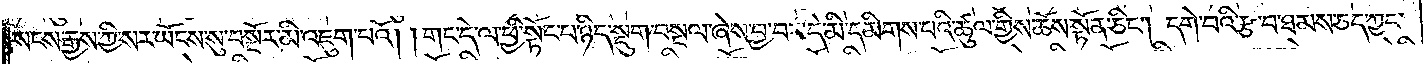སངས་རྒྱས་ཀྱི་སར་ཡོངས་སུ་བསྔོར་མི་འཇུག་པའོ། །གང་དེ་ལ་ཕྱི་སྟོང་པ་ཉིད་སྡུག་བསྔལ་ཞེས་བྱ་བར་དེ་མི་དམིགས་པའི་ཚུལ་གྱིས་ཆོས་སྟོན་ཅིང༌། དགེ་བའི་རྩ་བ་ཐམས་ཅད་ཀྱང་
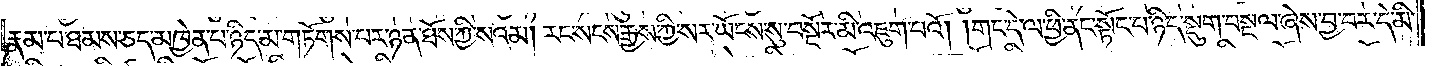རྣམ་པ་ཐམས་ཅད་མཁྱེན་པ་ཉིད་མ་གཏོགས་པར་ཉན་ཐོས་ཀྱི་སའམ། རང་སངས་རྒྱས་ཀྱི་སར་ཡོངས་སུ་བསྔོར་མི་འཇུག་པའོ། །གང་དེ་ལ་ཕྱི་ནང་སྟོང་པ་ཉིད་སྡུག་བསྔལ་ཞེས་བྱ་བར་དེ་མི་
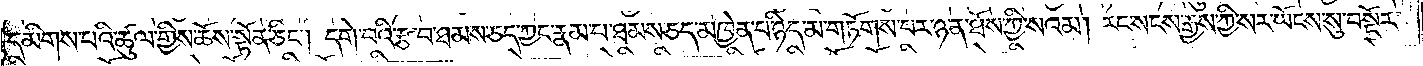དམིགས་པའི་ཚུལ་གྱིས་ཆོས་སྟོན་ཅིང༌། དགེ་བའི་རྩ་བ་ཐམས་ཅད་ཀྱང་རྣམ་པ་ཐམས་ཅད་མཁྱེན་པ་ཉིད་མ་གཏོགས་པར་ཉན་ཐོས་ཀྱི་སའམ། རང་སངས་རྒྱས་ཀྱི་སར་ཡོངས་སུ་བསྔོར་
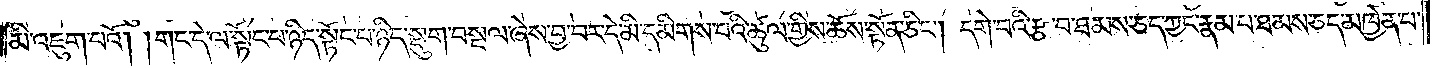མི་འཇུག་པའོ། །གང་དེ་ལ་སྟོང་པ་ཉིད་སྟོང་པ་ཉིད་སྡུག་བསྔལ་ཞེས་བྱ་བར་དེ་མི་དམིགས་པའི་ཚུལ་གྱིས་ཆོས་སྟོན་ཅིང༌། དགེ་བའི་རྩ་བ་ཐམས་ཅད་ཀྱང་རྣམ་པ་ཐམས་ཅད་མཁྱེན་པ་
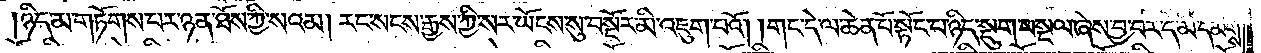ཉིད་མ་གཏོགས་པར་ཉན་ཐོས་ཀྱི་སའམ། རང་སངས་རྒྱས་ཀྱི་སར་ཡོངས་སུ་བསྔོར་མི་འཇུག་པའོ། །གང་དེ་ལ་ཆེན་པོ་སྟོང་བ་ཉིད་སྡུག་བསྔལ་ཞེས་བྱ་བར་དེ་མི་དམིགས་
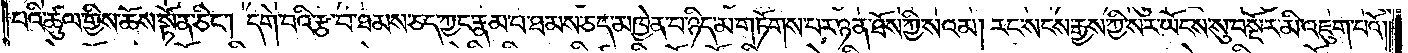པའི་ཚུལ་གྱིས་ཆོས་སྟོན་ཅིང༌། དགེ་བའི་རྩ་བ་ཐམས་ཅད་ཀྱང་རྣམ་པ་ཐམས་ཅད་མཁྱེན་པ་ཉིད་མ་གཏོགས་པར་ཉན་ཐོས་ཀྱི་སའམ། རང་སངས་རྒྱས་ཀྱི་སར་ཡོངས་སུ་བསྔོར་མི་འཇུག་པའོ༎
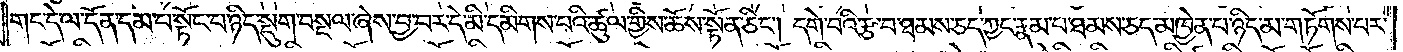གང་དེ་ལ་དོན་དམ་པ་སྟོང་པ་ཉིད་སྡུག་བསྔལ་ཞེས་བྱ་བར་དེ་མི་དམིགས་པའི་ཚུལ་གྱིས་ཆོས་སྟོན་ཅིང༌། དགེ་བའི་རྩ་བ་ཐམས་ཅད་ཀྱང་རྣམ་པ་ཐམས་ཅད་མཁྱེན་པ་ཉིད་མ་གཏོགས་པར་
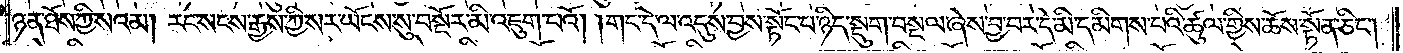ཉན་ཐོས་ཀྱི་སའམ། རང་སངས་རྒྱས་ཀྱི་སར་ཡོངས་སུ་བསྔོར་མི་འཇུག་པའོ། །གང་དེ་ལ་འདུས་བྱས་སྟོང་པ་ཉིད་སྡུག་བསྔལ་ཞེས་བྱ་བར་དེ་མི་དམིགས་པའི་ཚུལ་གྱིས་ཆོས་སྟོན་ཅིང༌།
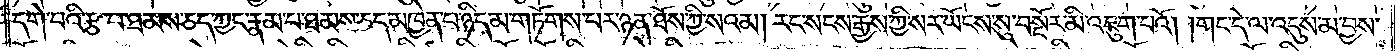དགེ་བའི་རྩ་བ་ཐམས་ཅད་ཀྱང་རྣམ་པ་ཐམས་ཅད་མཁྱེན་པ་ཉིད་མ་གཏོགས་པར་ཉན་ཐོས་ཀྱི་སའམ། རང་སངས་རྒྱས་ཀྱི་སར་ཡོངས་སུ་བསྔོར་མི་འཇུག་པའོ། །གང་དེ་ལ་འདུས་མ་བྱས་
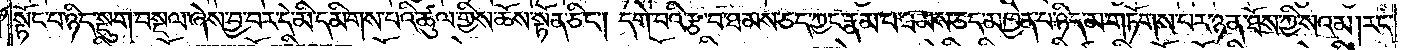སྟོང་པ་ཉིད་སྡུག་བསྔལ་ཞེས་བྱ་བར་དེ་མི་དམིགས་པའི་ཚུལ་གྱིས་ཆོས་སྟོན་ཅིང༌། དགེ་བའི་རྩ་བ་ཐམས་ཅད་ཀྱང་རྣམ་པ་ཐམས་ཅད་མཁྱེན་པ་ཉིད་མ་གཏོགས་པར་ཉན་ཐོས་ཀྱི་སའམ། རང་
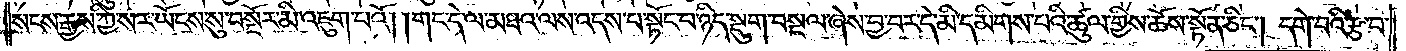སངས་རྒྱས་ཀྱི་སར་ཡོངས་སུ་བསྔོར་མི་འཇུག་པའོ། །གང་དེ་ལ་མཐའ་ལས་འདས་པ་སྟོང་པ་ཉིད་སྡུག་བསྔལ་ཞེས་བྱ་བར་དེ་མི་དམིགས་པའི་ཚུལ་གྱིས་ཆོས་སྟོན་ཅིང༌། དགེ་བའི་རྩ་བ་
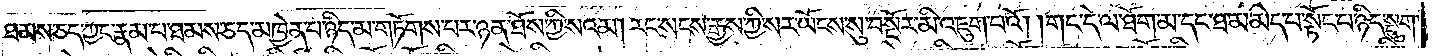ཐམས་ཅད་ཀྱང་རྣམ་པ་ཐམས་ཅད་མཁྱེན་པ་ཉིད་མ་གཏོགས་པར་ཉན་ཐོས་ཀྱི་སའམ། རང་སངས་རྒྱས་ཀྱི་སར་ཡོངས་སུ་བསྔོར་མི་འཇུག་པའོ། །གང་དེ་ལ་ཐོག་མ་དང་ཐ་མ་མེད་པ་སྟོང་པ་ཉིད་སྡུག་
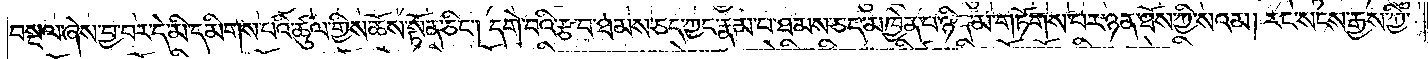བསྔལ་ཞེས་བྱ་བར་དེ་མི་དམིགས་པའི་ཚུལ་གྱིས་ཆོས་སྟོན་ཅིང༌། དགེ་བའི་རྩ་བ་ཐམས་ཅད་ཀྱང་རྣམ་པ་ཐམས་ཅད་མཁྱེན་པ་ཉིད་མ་གཏོགས་པར་ཉན་ཐོས་ཀྱི་སའམ། རང་སངས་རྒྱས་ཀྱི་
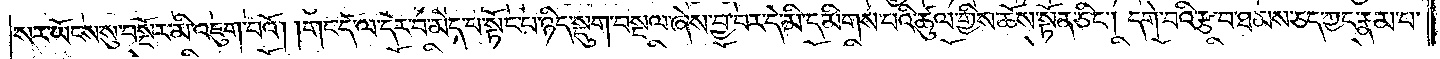སར་ཡོངས་སུ་བསྔོར་མི་འཇུག་པའོ། །གང་དེ་ལ་དོར་བ་མེད་པ་སྟོང་པ་ཉིད་སྡུག་བསྔལ་ཞེས་བྱ་བར་དེ་མི་དམིགས་པའི་ཚུལ་གྱིས་ཆོས་སྟོན་ཅིང༌། དགེ་བའི་རྩ་བ་ཐམས་ཅད་ཀྱང་རྣམ་པ་
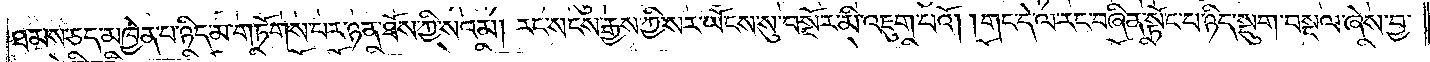ཐམས་ཅད་མཁྱེན་པ་ཉིད་མ་གཏོགས་པར་ཉན་ཐོས་ཀྱི་སའམ། རང་སངས་རྒྱས་ཀྱི་སར་ཡོངས་སུ་བསྔོར་མི་འཇུག་པའོ། །གང་དེ་ལ་རང་བཞིན་སྟོང་པ་ཉིད་སྡུག་བསྔལ་ཞེས་བྱ་
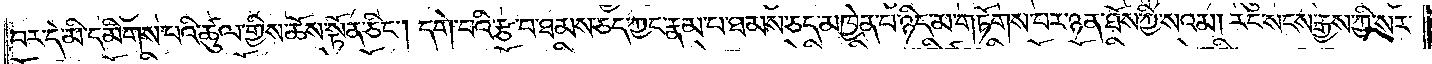བར་དེ་མི་དམིགས་པའི་ཚུལ་གྱིས་ཆོས་སྟོན་ཅིང༌། དགེ་བའི་རྩ་བ་ཐམས་ཅད་ཀྱང་རྣམ་པ་ཐམས་ཅད་མཁྱེན་པ་ཉིད་མ་གཏོགས་པར་ཉན་ཐོས་ཀྱི་སའམ། རང་སངས་རྒྱས་ཀྱི་སར་
